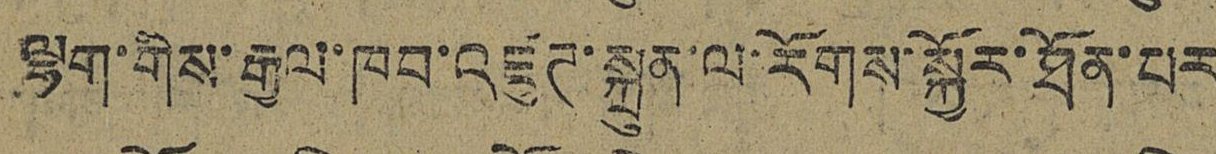ལྷག་གིས་རྒྱལ་ཁབ་འཛུཊ་སྐྲུན་ལ་རོགས་སྐྱོར་ཐོན་པར
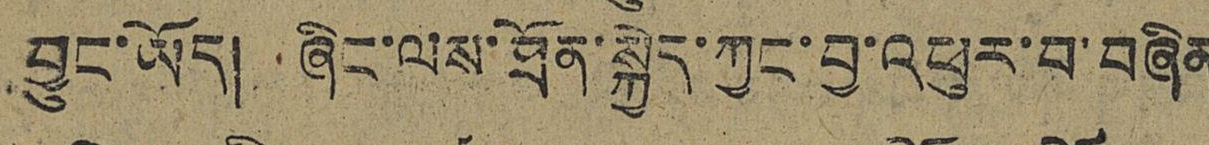བྱུང་ཡོད། ཞིང་ལས་ཐོན་སྐྱེད་ཀྱང་བྱ་འཕུར་བ་བཞིན
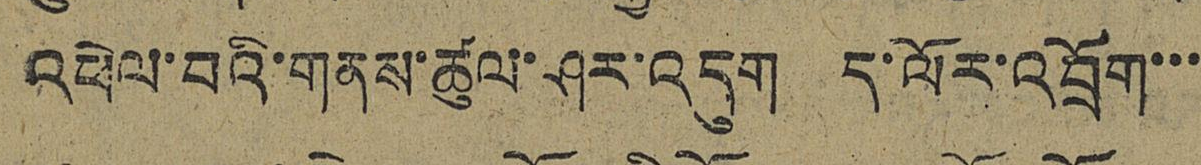འཕེལ་བའི་གནས་ཚུལ་ཤར་འདུག ད་ལོར་འབྲོག་་་་
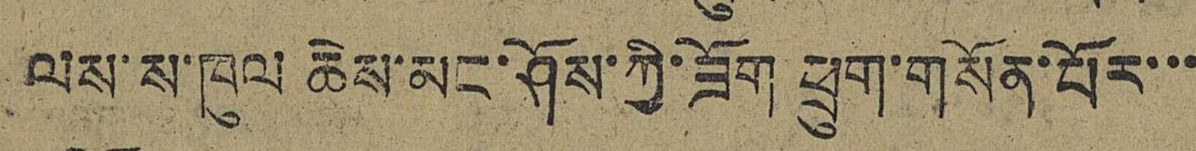ལས་ས་ཁུལ ཆེས་མང་ཤོས་ཀྱི་ཟོག ཕྲུག་གསོན་པོར་་་་
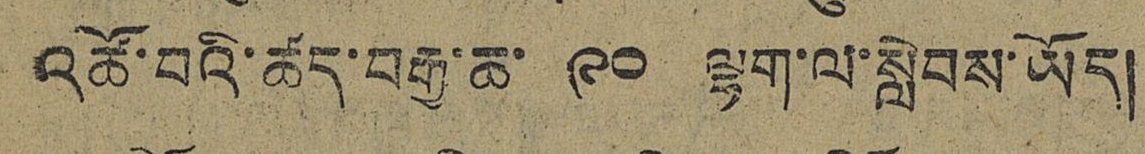འཚོ་བའི་ཚད་བརྒྱ་ཆ་ ༩༠ ལྷག་ལ་སླེབས་ཡོད།
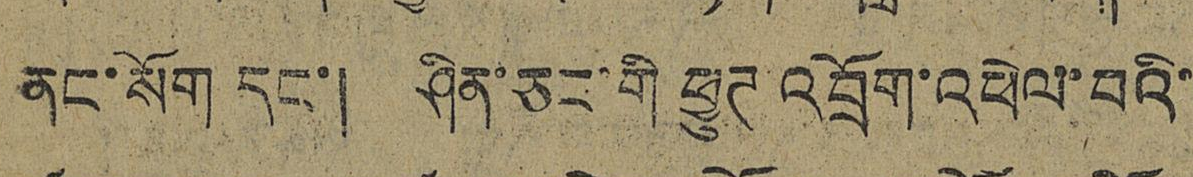ནང་སོག དང་། ཤིན་ཅང་གི ཕྱུཊ འབྲོག་འཕེལ་བའི་་
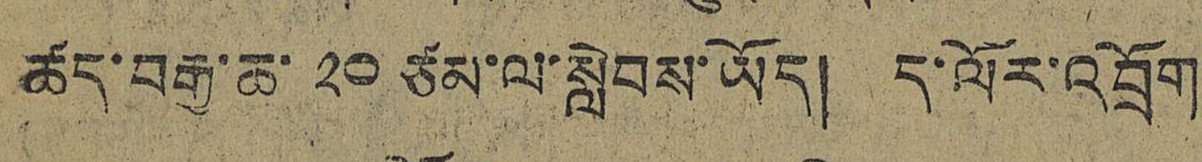ཚད་བརྒྱ་ཆ་ ༢༠ ཙམ་ལ་སླེབས་ཡོད། ད་ལོར་འབྲོག་
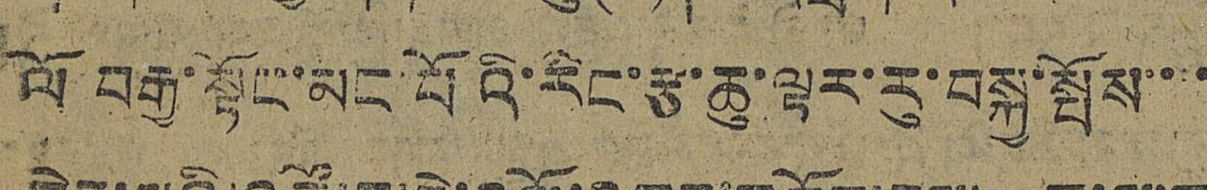ལོ བརྒྱ་སྟོང་མང་པོའི་རིང་རྩ་ཆུ་ལྟར་རུ་བརྒྱ་སྤོས་་་་
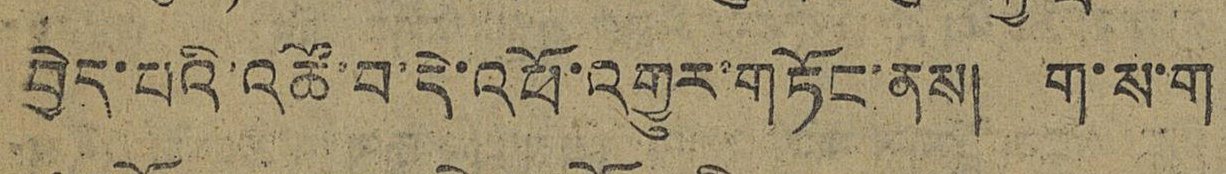བྱེད་པའི་འཚོ་བ་དེ་འཕོ་འགྱུར་གཏོང་ནས། ག་ས་ག
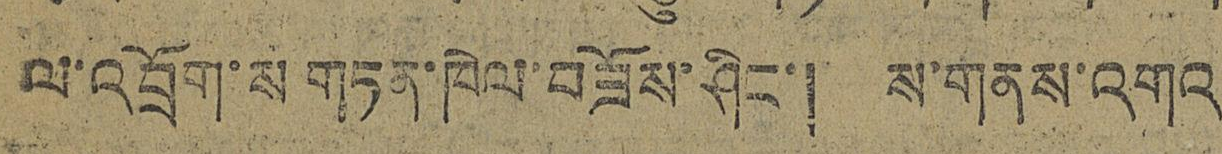ལ་འབྲོག་ས གཏན་ཁེལ་བཟོས་ཤིང་། ས་གནས་འགའ
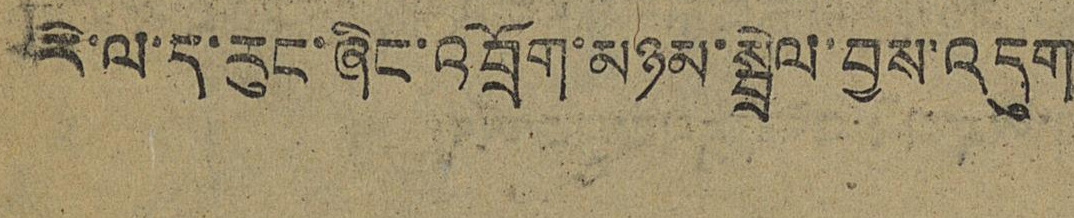རི་ལ་ད་རུང་ཞིང་འབྲོག་མཉམ་སྦྲེལ་བྱས་འདུག
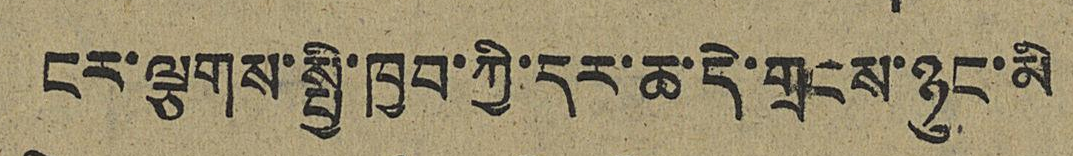ངར་ལྕགས་སྤྱི་ཁྱབ་ཀྱི་དར་ཆ་དེ་གྲངས་ཉུང་མི
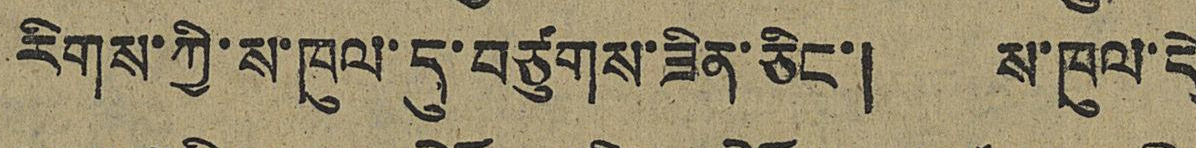རིགས་ཀྱི་ས་ཁུལ་དུ་བཙུགས་ཟིན་ཅིང་། ས་ཁུལ་དེ
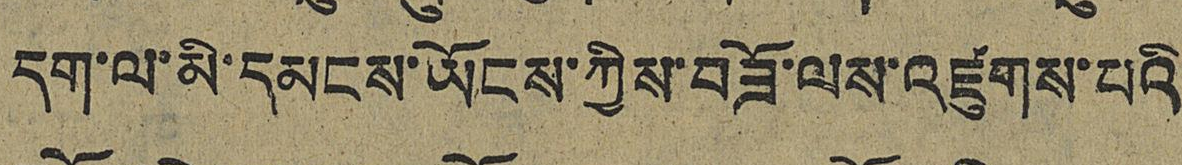དག་ལ་མི་དམངས་ཡོངས་ཀྱིས་བཟོ་ལས་འཛུགས་པའི་
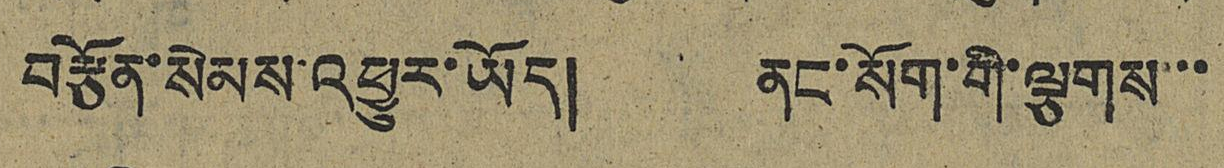བརྩོན་སེམས་འཕྱུར་ཡོད། ནང་སོག་གི་ལྕགས་་་
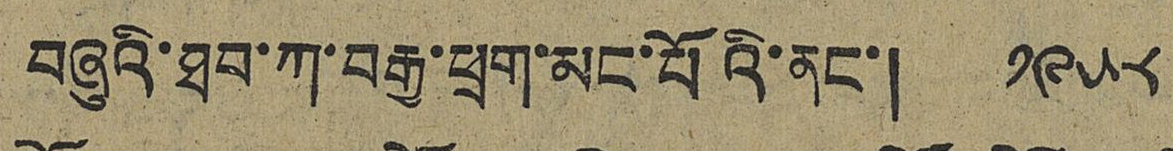བཞུའི་ཐབ་ཀ་བརྒྱ་ཕྲག་མང་པོའི་ནང་། ༡༩༥༨
